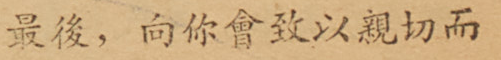最後，向你會致以親切而
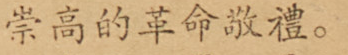崇高的革命敬禮。
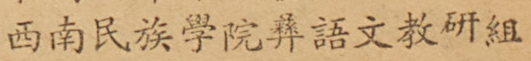西南民族學員彝語文教研組
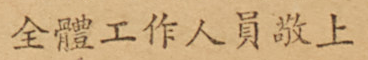全體工作人員敬上
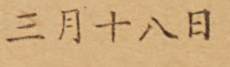三月十八日
